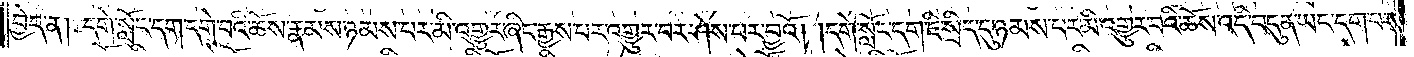བྱེད་ན། དགེ་སློང་དག་དགེ་བའི་ཆོས་རྣམས་ཉམས་པར་མི་འགྱུར་ཞིང་རྒྱས་པར་འགྱུར་བར་ཤེས་པར་བྱའོ། །དགེ་སློང་དག་ཇི་སྲིད་དུ་ཉམས་པར་མི་འགྱུར་བའི་ཆོས་འདི་བདུན་ཡང་དག་པར་
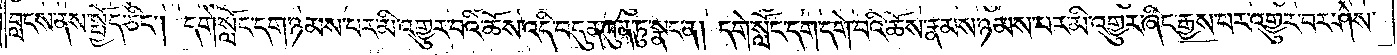བླངས་ནས་སྤྱོད་ཅིང༌། དགེ་སློང་དག་ཉམས་པར་མི་འགྱུར་བའི་ཆོས་འདི་བདུན་ཀུན་ཏུ་སྣང་ན། དགེ་སློང་དག་དགེ་བའི་ཆོས་རྣམས་ཉམས་པར་མི་འགྱུར་ཞིང་རྒྱས་པར་འགྱུར་བར་ཤེས་
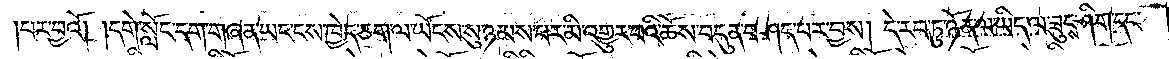པར་བྱའོ། །དགེ་སློང་དག་གཞན་ཡང་ངས་ཁྱེད་ཅག་ལ་ཡོངས་སུ་ཉམས་པར་མི་འགྱུར་བའི་ཆོས་བདུན་བཤད་པར་བྱས། དེ་རབ་ཏུ་ཉོན་ལ་ཡིད་ལ་ཟུངས་ཤིག་དང་
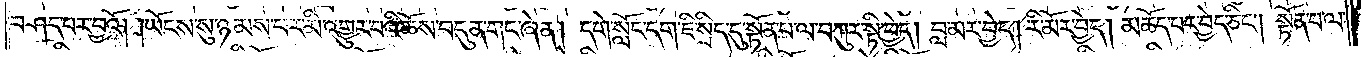བཤད་པར་བྱའོ། །ཡོངས་སུ་ཉམས་པར་མི་འགྱུར་བའི་ཆོས་བདུན་གང་ཞེ་ན། དགེ་སློང་དག་ཇི་སྲིད་དུ་སྟོན་པ་ལ་བཀུར་སྟི་བྱེད། བླ་མར་བྱེད། རི་མོར་བྱེད། མཆོད་པར་བྱེད་ཅིང༌། སྟོན་པ་ལ་
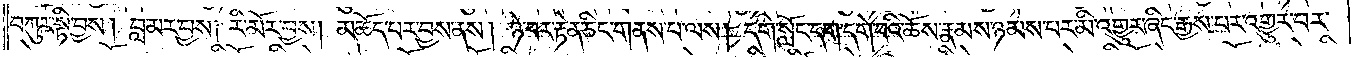བཀུར་སྟི་བྱས། བླ་མར་བྱས། རི་མོར་བྱས། མཆོད་པར་བྱས་ནས། ཉེ་བར་རྟེན་ཅིང་གནས་པ་ལས། དགེ་སློང་དག་དགེ་བའི་ཆོས་རྣམས་ཉམས་པར་མི་འགྱུར་ཞིང་རྒྱས་པར་འགྱུར་བར་
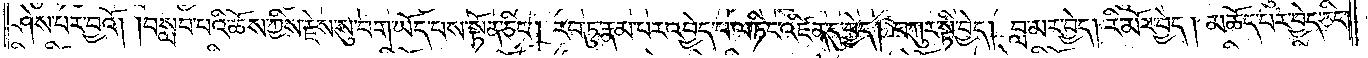ཤེས་པར་བྱའོ། །བསླབ་པའི་ཆོས་ཀྱིས་རྗེས་སུ་བག་ཡོད་པས་སྟོན་ཅིང༌། རབ་ཏུ་རྣམ་པར་འབྱེད་པ་ལ་ཏིང་འཛིན་དུ་བྱེད། བཀུར་སྟི་བྱེད། བླ་མར་བྱེད། རི་མོར་བྱེད། མཆོད་པར་བྱེད་ཅིང༌།
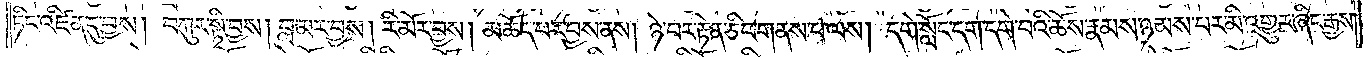ཏིང་འཛིན་དུ་བྱས། བཀུར་སྟི་བྱས། བླ་མར་བྱས། རི་མོར་བྱས། མཆོད་པར་བྱས་ནས། ཉེ་བར་རྟེན་ཅིང་གནས་པ་ལས། དགེ་སློང་དག་དགེ་བའི་ཆོས་རྣམས་ཉམས་པར་མི་འགྱུར་ཞིང་རྒྱས་
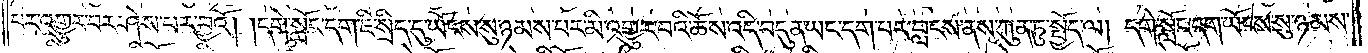པར་འགྱུར་བར་ཤེས་པར་བྱའོ། །དགེ་སློང་དག་ཇི་སྲིད་དུ་ཡོངས་སུ་ཉམས་པར་མི་འགྱུར་བའི་ཆོས་འདི་བདུན་ཡང་དག་པར་བླངས་ནས་ཀུན་ཏུ་སྤྱོད་ལ། དགེ་སློང་དག་ཡོངས་སུ་ཉམས་
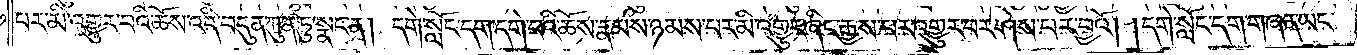པར་མི་འགྱུར་བའི་ཆོས་འདི་བདུན་ཀུན་ཏུ་སྣང་ན། དགེ་སློང་དག་དགེ་བའི་ཆོས་རྣམས་ཉམས་པར་མི་འགྱུར་ཞིང་རྒྱས་པར་འགྱུར་བར་ཤེས་པར་བྱའོ། །དགེ་སློང་དག་གཞན་ཡང་
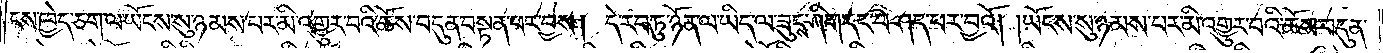ངས་ཁྱེད་ཅག་ལ་ཡོངས་སུ་ཉམས་པར་མི་འགྱུར་བའི་ཆོས་བདུན་བསྟན་པར་བྱས། དེ་རབ་ཏུ་ཉོན་ལ་ཡིད་ལ་ཟུངས་ཤིག་དང་བཤད་པར་བྱའོ། །ཡོངས་སུ་ཉམས་པར་མི་འགྱུར་བའི་ཆོས་བདུན་
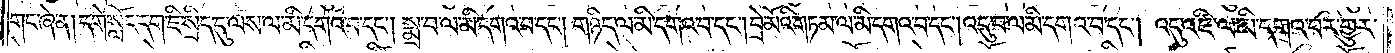གང་ཞེ་ན། དགེ་སློང་དག་ཇི་སྲིད་དུ་ལས་ལ་མི་དགའ་བ་དང༌། སྨྲ་བ་ལ་མི་དགའ་བ་དང༌། གཉིད་ལ་མི་དགའ་བ་དང༌། བྲེ་མོའི་གཏམ་ལ་མི་དགའ་བ་དང༌། འདུ་བ་ལ་མི་དགའ་བ་དང༌། འདུ་འཛི་ལ་མི་དགའ་བར་གྱུར་
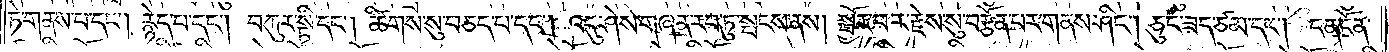ཏེ་གནས་པ་དང༌། རྙེད་པ་དང༌། བཀུར་སྟི་དང༌། ཚིགས་སུ་བཅད་པ་དང༌། འདུ་ཤེས་གཞན་རབ་ཏུ་སྤངས་ནས། སྦྱོར་བར་རྗེས་སུ་བརྩོན་པར་གནས་ཤིང༌། ཅུང་ཟད་ཙམ་དང༌། ངན་ངོན་
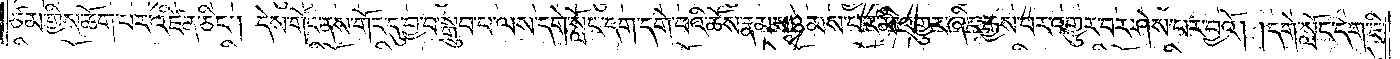ཙམ་གྱིས་ཆོག་པར་འཛིན་ཅིང༌། དེས་གོང་ནས་གོང་དུ་བྱ་བ་སྒྲུབ་པ་ལས་དགེ་སློང་དག་དགེ་བའི་ཆོས་རྣམས་ཉམས་པར་མི་འགྱུར་ཞིང་རྒྱས་པར་འགྱུར་བར་ཤེས་པར་བྱའོ། །དགེ་སློང་དག་ཇི་
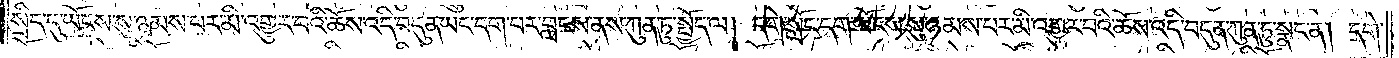སྲིད་དུ་ཡོངས་སུ་ཉམས་པར་མི་འགྱུར་བའི་ཆོས་འདི་བདུན་ཡང་དག་པར་བླངས་ནས་ཀུན་ཏུ་སྤྱོད་ལ། དགེ་སློང་དག་ཡོངས་སུ་ཉམས་པར་མི་འགྱུར་བའི་ཆོས་འདི་བདུན་ཀུན་ཏུ་སྣང་ན། དགེ་
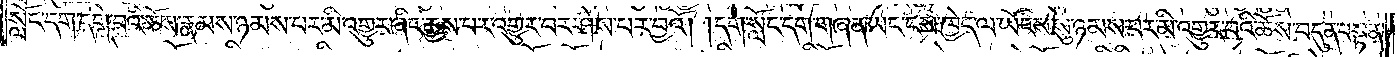སློང་དག་དགེ་བའི་ཆོས་རྣམས་ཉམས་པར་མི་འགྱུར་ཞིང་རྒྱས་པར་འགྱུར་བར་ཤེས་པར་བྱའོ། །དགེ་སློང་དག་གཞན་ཡང་ངས་ཁྱེད་ལ་ཡོངས་སུ་ཉམས་པར་མི་འགྱུར་བའི་ཆོས་བདུན་བསྟན་
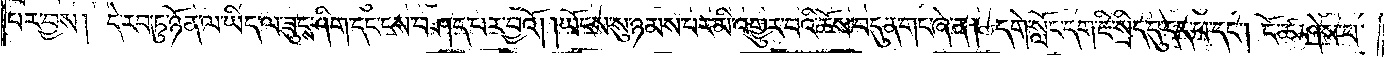པར་བྱས། དེ་རབ་ཏུ་ཉོན་ལ་ཡིད་ལ་ཟུངས་ཤིག་དང་ངས་བཤད་པར་བྱའོ། །ཡོངས་སུ་ཉམས་པར་མི་འགྱུར་བའི་ཆོས་བདུན་གང་ཞེ་ན། དགེ་སློང་དག་ཇི་སྲིད་དུ་དད་པ་དང༌། ངོ་ཚ་ཤེས་པ་
